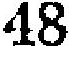48
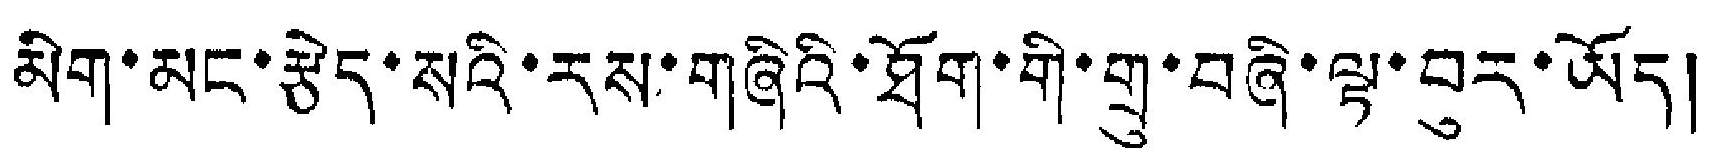མིག་མང་རྩེད་སའི་རས་གཞིའི་ཐོག་གི་གྲུ་བཞི་ལྟ་བུར་ཡོད།
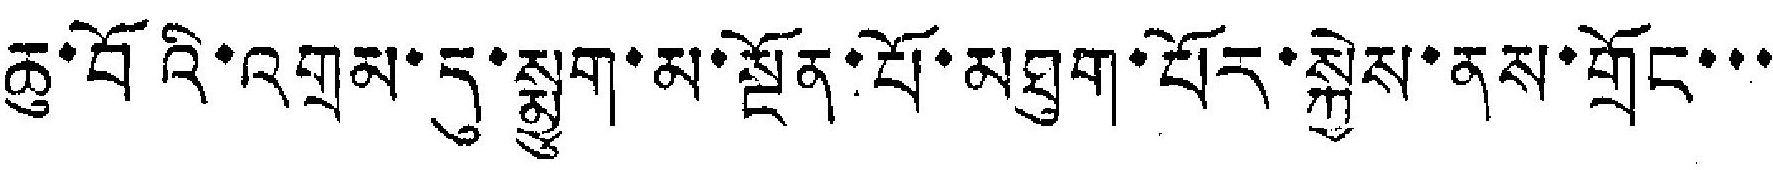ཆུ་བོའི་འགྲམ་དུ་སྨྱུག་མ་སྔོན་པོ་མཐུག་པོར་སྐྱེས་ནས་གྲོང་་་
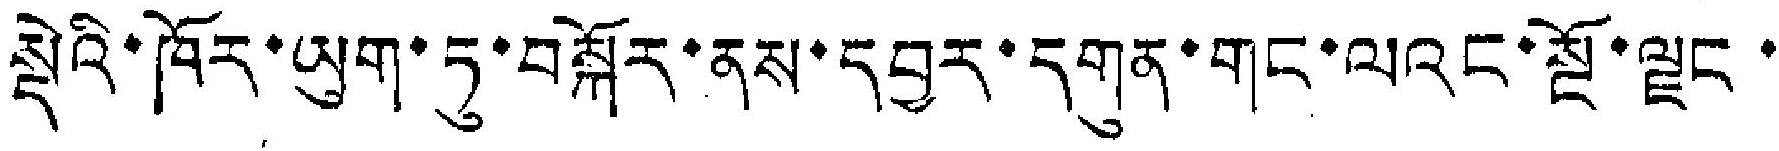སྡེའི་ཁོར་ཡུག་ཏུ་བསྐོར་ནས་དབྱར་དགུན་གང་ལའང་སྡོ་ལྗང་
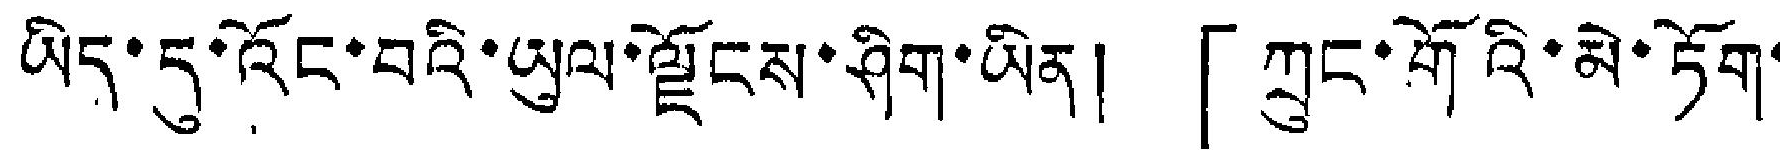ཡིད་དུ་འོང་བའི་ཡུལ་ལྗོངས་ཤིག་ཡིན། 「ཀྲུང་གོའི་མེ་ཏོག་
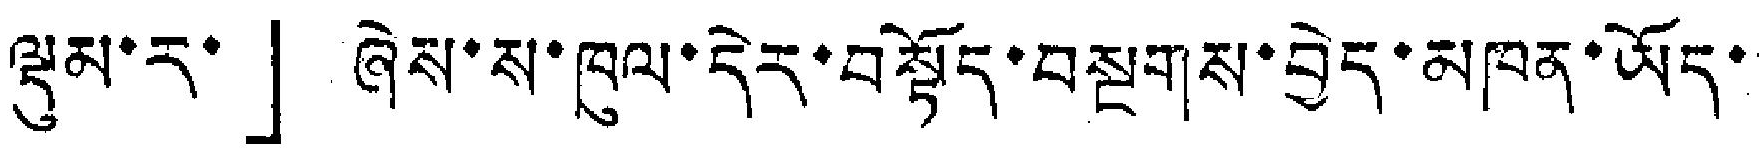ལྡུམ་ར་」ཞེས་ས་ཁུལ་དེར་བསྟོད་བསྔགས་བྱེད་མཁན་ཡོད་་
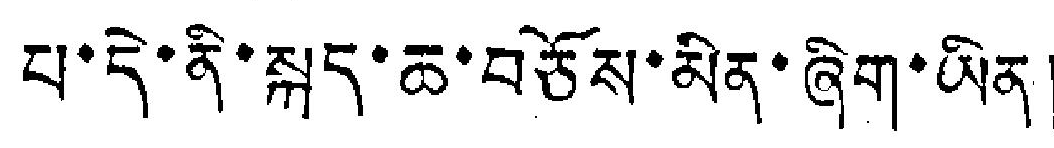པ་དེ་ནི་སྐད་ཆ་བཅོས་མིན་ཞིག་ཡིན།
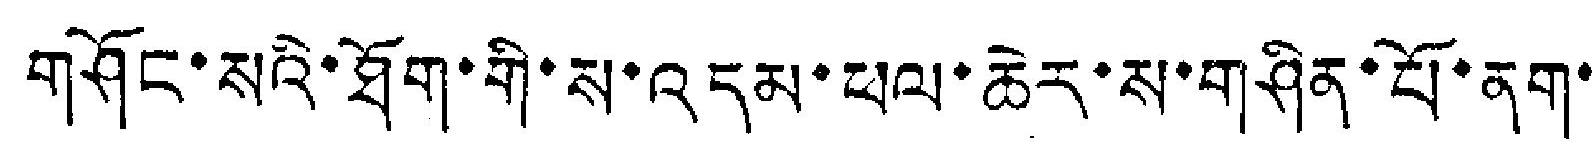གཤོང་སའི་ཐོག་གི་ས་འདམ་ཕལ་ཆེར་ས་གཤིན་པོ་ནག་
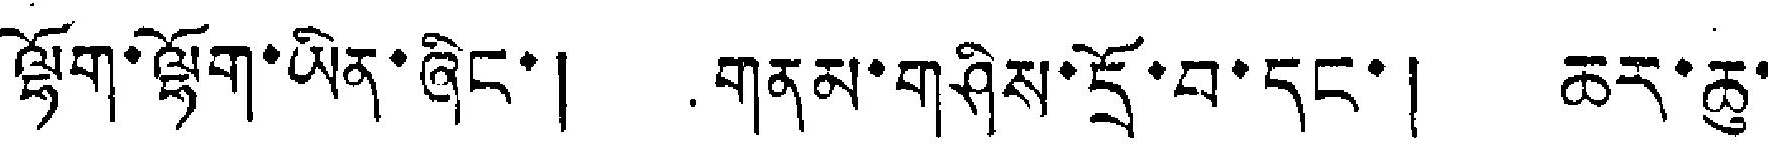ལྷོག་ལྷོག་ཡིན་ཞིང་། གནམ་གཤིས་དྲོ་བ་དང་། ཆར་ཆུ་
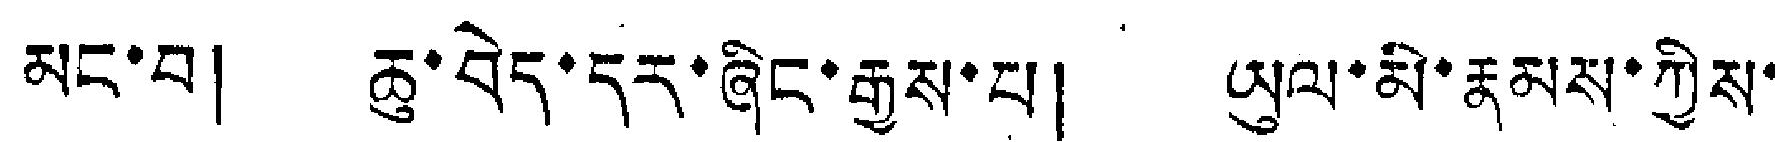མང་བ། ཆུ་བེད་དར་ཞིང་རྒྱས་པ། ཡུལ་མི་རྣམས་ཀྱིས་
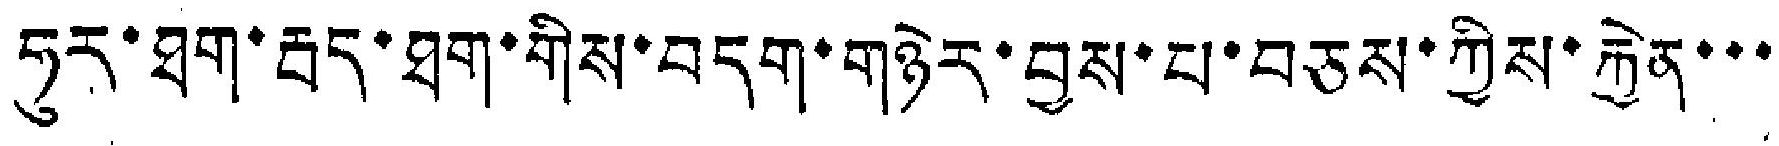ཧུར་ཐག་རྦད་ཐག་གིས་བདག་གཉེར་བྱས་པ་བཅས་ཀྱིས་རྐྱེན་་་
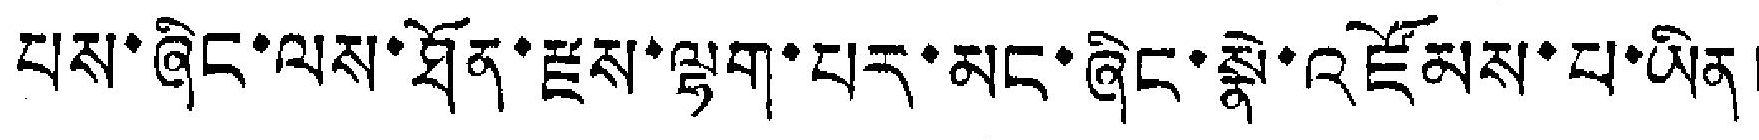པས་ཞིང་ལས་ཐོན་རྫས་ལྷག་པར་མང་ཞིང་སྣེ་འཛོམས་པ་ཡིན།
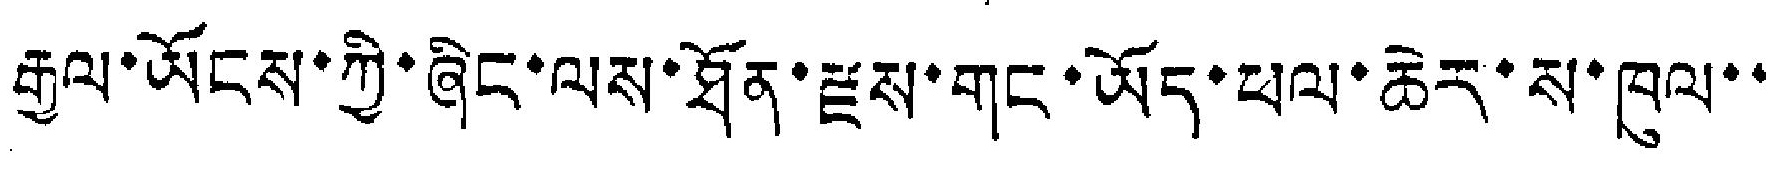རྒྱལ་ཡོངས་ཀྱི་ཞིང་ལས་ཐོན་རྫས་གང་ཡོད་ཕལ་ཆེར་ས་ཁུལ་་
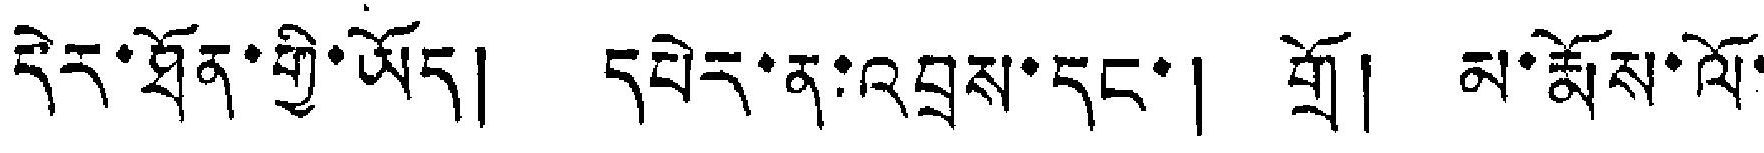དེར་ཐོན་གྱི་ཡོད། དཔེར་ན་འབྲས་དང་། གྲོ། མ་རྨོས་ལོ་
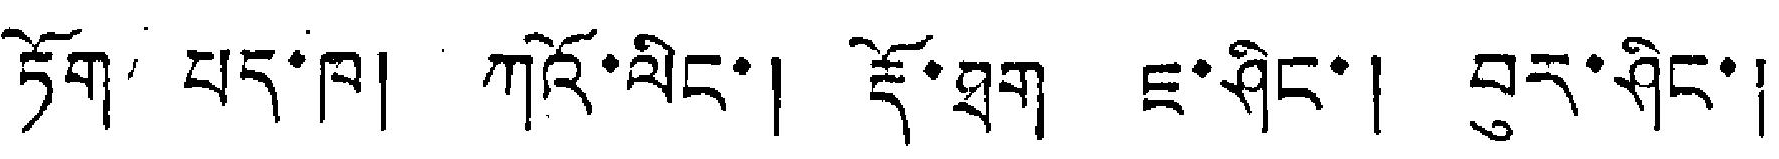ཏོག པད་ཁ། ཀའོ་ལིང་། རྡོ་ཐུག ཇ་ཤིང་། བར་ཤིང་།
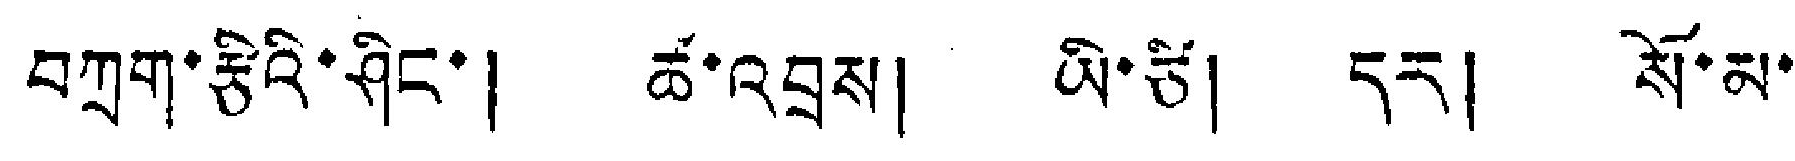བཀྲག་རྩིའི་ཤིང་། ཚ་འབྲས། ཡི་ཙི། དར། སོ་མ་
